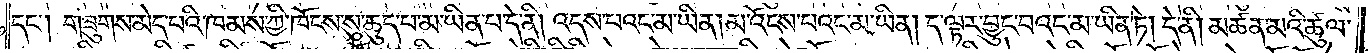དང༌། གཟུགས་མེད་པའི་ཁམས་ཀྱི་ཁོངས་སུ་ཆུད་པ་མ་ཡིན་པ་དེ་ནི། འདས་པའང་མ་ཡིན། མ་འོངས་པའང་མ་ཡིན། ད་ལྟར་བྱུང་བའང་མ་ཡིན་ཏེ། དེ་ནི། མཚན་མའི་ཚུལ་
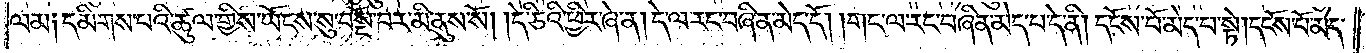ལམ༑ དམིགས་པའི་ཚུལ་གྱིས་ཡོངས་སུ་བསྔོ་བར་མི་ནུས་སོ། །དེ་ཅིའི་ཕྱིར་ཞེ་ན། དེ་ལ་རང་བཞིན་མེད་དོ། །གང་ལ་རང་བཞིན་མེད་པ་དེ་ནི། དངོས་པོ་མེད་པ་སྟེ། དངོས་པོ་མེད་
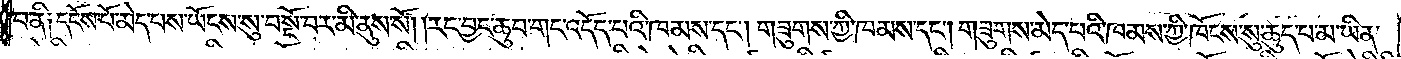པ་ནི༑ དངོས་པོ་མེད་པས་ཡོངས་སུ་བསྔོ་བར་མི་ནུས་སོ། །རང་བྱང་ཆུབ་གང་འདོད་པའི་ཁམས་དང༌། གཟུགས་ཀྱི་ཁམས་དང༌། གཟུགས་མེད་པའི་ཁམས་ཀྱི་ཁོངས་སུ་ཆུད་པ་མ་ཡིན་
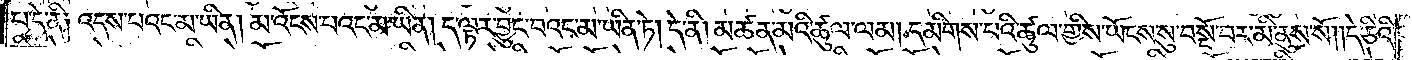པ་དེ་ནི༑ འདས་པའང་མ་ཡིན། མ་འོངས་པའང་མ་ཡིན། ད་ལྟར་བྱུང་བའང་མ་ཡིན་ཏེ། དེ་ནི། མཚན་པའི་ཚུལ་ལམ། དམིགས་པའི་ཚུལ་གྱིས་ཡོངས་སུ་བསྔོ་བར་མི་ནུས་སོ། །དེ་ཅིའི་
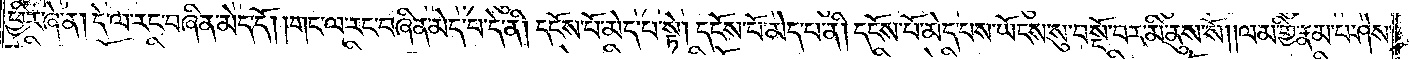ཕྱིར་ཞེ་ན། དེ་ལ་རང་བཞིན་མེད་དོ། །གང་ལ་རང་བཞིན་མེད་པ་དེ་ནི། དངོས་པོ་མེད་པ་སྟེ། དངོས་པོ་མེད་པ་ནི། དངོས་པོ་མེད་པས་ཡོངས་སུ་བསྔོ་བར་མི་ནུས་སོ། །ལམ་གྱི་རྣམ་པ་ཤེས་
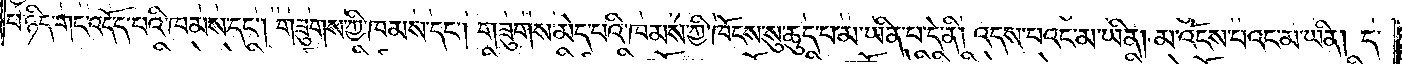པ་ཉིད་གང་འདོད་པའི་ཁམས་དང༌། གཟུགས་ཀྱི་ཁམས་དང༌། གཟུགས་མེད་པའི་ཁམས་ཀྱི་ཁོངས་སུ་ཆུད་པ་མ་ཡིན་པ་དེ་ནི། འདས་པའང་མ་ཡིན། མ་འོངས་པའང་མ་ཡིན། ད་
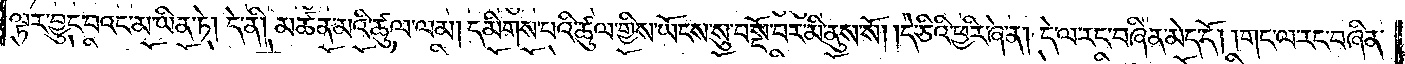ལྟར་བྱུང་བའང་མ་ཡིན་ཏེ། དེ་ནི། མཚན་མའི་ཚུལ་ལམ། དམིགས་པའི་ཚུལ་གྱིས་ཡོངས་སུ་བསྔོ་བར་མི་ནུས་སོ། །དེ་ཅིའི་ཕྱིར་ཞེ་ན། དེ་ལ་རང་བཞིན་མེད་དོ། །གང་ལ་རང་བཞིན་
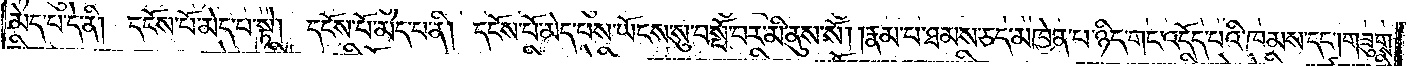མེད་པ་དེ་ནི། དངོས་པོ་མེད་པ་སྟེ། དངོས་པོ་མེད་པ་ནི། དངོས་པོ་མེད་པས་ཡོངས་སུ་བསྔོ་བར་མི་ནུས་སོ། །རྣམ་པ་ཐམས་ཅད་མཁྱེན་པ་ཉིད་གང་འདོད་པའི་ཁམས་དང༌། གཟུགས་
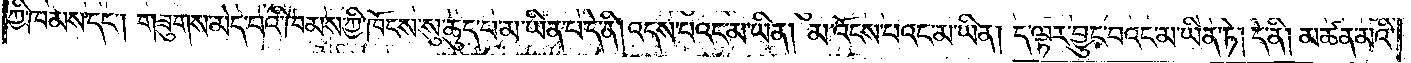ཀྱི་ཁམས་དང༌། གཟུགས་མེད་པའི་ཁམས་ཀྱི་ཁོངས་སུ་ཆུད་པ་མ་ཡིན་པ་དེ་ནི། འདས་པའང་མ་ཡིན། མ་འོངས་པའང་མ་ཡིན། ད་ལྟར་བྱུང་བའང་མ་ཡིན་ཏེ། དེ་ནི། མཚན་མའི་
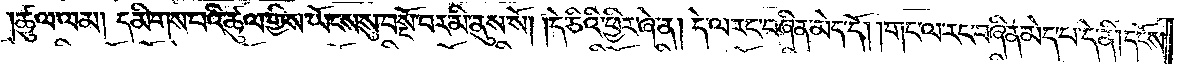ཚུལ་ལམ། དམིགས་པའི་ཚུལ་གྱིས་ཡོངས་སུ་བསྔོ་བར་མི་ནུས་སོ། །དེ་ཅིའི་ཕྱིར་ཞེ་ན། དེ་ལ་རང་བཞིན་མེད་དོ། །གང་ལ་རང་བཞིན་མེད་པ་དེ་ནི། དངོས་
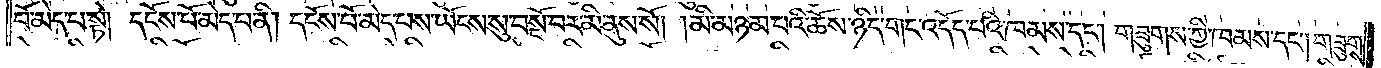པོ་མེད་པ་སྟེ། དངོས་པོ་མེད་པ་ནི། དངོས་པོ་མེད་པས་ཡོངས་སུ་བསྔོ་བར་མི་ནུས་སོ། །མི་ཉམས་པའི་ཆོས་ཉིད་གང་འདོད་པའི་ཁམས་དང༌། གཟུགས་ཀྱི་ཁམས་དང༌། གཟུགས་
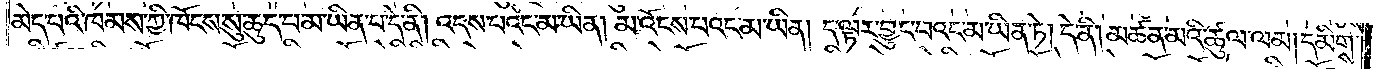མེད་པའི་ཁམས་ཀྱི་ཁོངས་སུ་ཆུད་པ་མ་ཡིན་པ་དེ་ནི། འདས་པའང་མ་ཡིན། མ་འོངས་པའང་མ་ཡིན། ད་ལྟར་བྱུང་བའང་མ་ཡིན་ཏེ། དེ་ནི། མཆན་མའི་ཚུལ་ལམ། དམིགས་
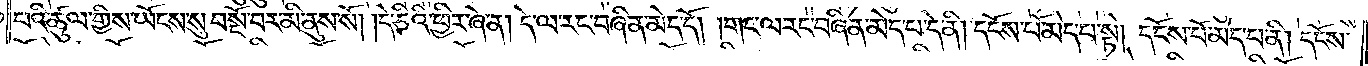པའི་ཚུལ་གྱིས་ཡོངས་སུ་བསྔོ་བར་མི་ནུས་སོ། །དེ་ཅིའི་ཕྱིར་ཞེ་ན། དེ་ལ་རང་བཞིན་མེད་དོ། །གང་ལ་རང་བཞིན་མེད་པ་དེ་ནི། དངོས་པོ་མེད་པ་སྟེ། དངོས་པོ་མེད་པ་ནི། དངོས་
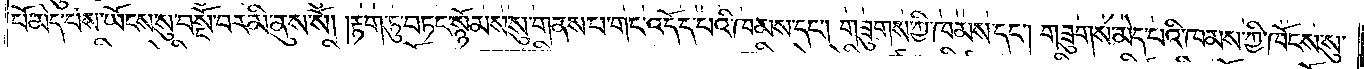པོ་མེད་པས་ཡོངས་སུ་བསྔོ་བར་མི་ནུས་སོ། །རྟག་ཏུ་བཏང་སྙོམས་སུ་གནས་པ་གང་འདོད་པའི་ཁམས་དང༌། གཟུགས་ཀྱི་ཁམས་དང༌། གཟུགས་མེད་པའི་ཁམས་ཀྱི་ཁོངས་སུ་
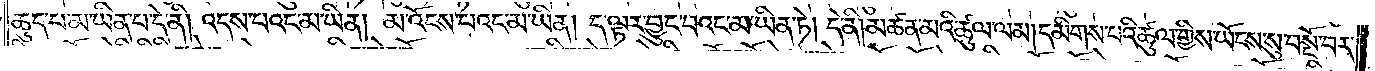ཆུད་པ་མ་ཡིན་པ་དེ་ནི། འདས་པའང་མ་ཡིན། མ་འོངས་པའང་མ་ཡིན། ད་ལྟར་བྱུང་བའང་མ་ཡིན་ཏེ། དེ་ནི། མཚན་མའི་ཚུལ་ལམ། དམིགས་པའི་ཚུལ་གྱིས་ཡོངས་སུ་བསྔོ་བར་
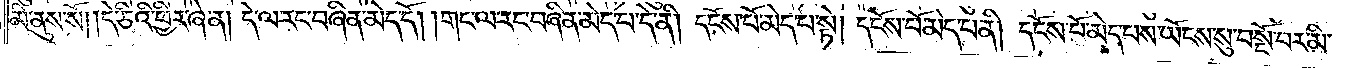མི་ནུས་སོ། །དེ་ཅིའི་ཕྱིར་ཞེ་ན། དེ་ལ་རང་བཞིན་མེད་དོ། །གང་ལ་རང་བཞིན་མེད་པ་དེ་ནི། དངོས་པོ་མེད་པ་སྟེ། དངོས་པོ་མེད་པ་ནི། དངོས་པོ་མེད་པས་ཡོངས་སུ་བསྔོ་བར་མི་
